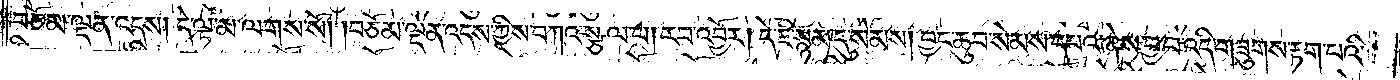བཅོམ་ལྡན་འདས། དེ་ལྟ་མ་ལགས་སོ། །བཅོམ་ལྡན་འདས་ཀྱིས་བཀའ་སྩལ་པ། རབ་འབྱོར། དེ་ཇི་སྙམ་དུ་སེམས། བྱང་ཆུབ་སེམས་དཔའ་ཞེས་བྱ་བ་འདི་གཟུགས་རྟག་པའི་
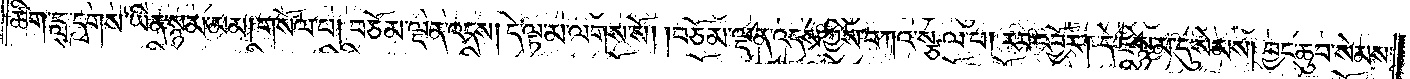ཚིག་བླ་དྭགས་ཡིན་སྙམ་མམ། གསོལ་པ། བཅོམ་ལྡན་འདས། དེ་ལྟ་མ་ལགས་སོ། །བཅོམ་ལྡན་འདས་ཀྱིས་བཀའ་སྩལ་པ། རབ་འབྱོར། དེ་ཇི་སྙམ་དུ་སེམས། བྱང་ཆུབ་སེམས་
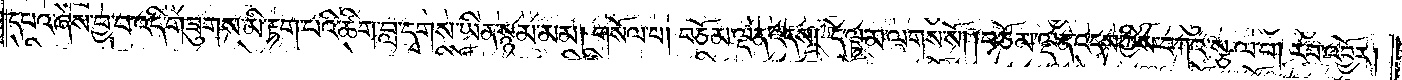དཔའ་ཞེས་བྱ་བ་འདི་གཟུགས་མི་རྟག་པའི་ཚིག་བླ་དྭགས་ཡིན་སྙམ་མམ། གསོལ་པ། བཅོམ་ལྡན་འདས། དེ་ལྟ་མ་ལགས་སོ། །བཅོམ་ལྡན་འདས་ཀྱིས་བཀའ་སྩལ་པ། རབ་འབྱོར།
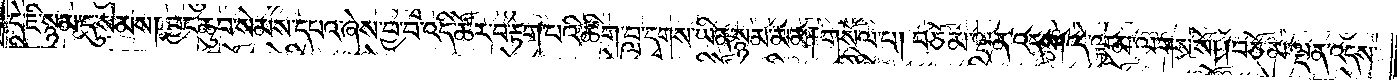དེ་ཇི་སྙམ་དུ་སེམས། བྱང་ཆུབ་སེམས་དཔའ་ཞེས་བྱ་བ་འདི་ཚོར་བརྟག་པའི་ཚིག་བླ་དྭགས་ཡིན་སྙམ་མམ། གསོལ་པ། བཅོམ་ལྡན་འདས། དེ་ལྟ་མ་ལགས་སོ། །བཅོམ་ལྡན་འདས་
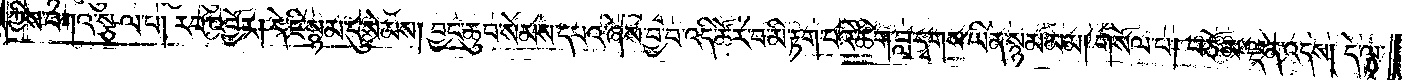ཀྱིས་བཀའ་སྩལ་པ། རབ་འབྱོར། དེ་ཇི་སྙམ་དུ་སེམས། བྱང་ཆུབ་སེམས་དཔའ་ཞེས་བྱ་བ་འདི་ཚོར་བ་མི་རྟག་པའི་ཚིག་བླ་དྭགས་ཡིན་སྙམ་མམ། གསོལ་པ། བཅོམ་ལྡན་འདས། དེ་ལྟ་
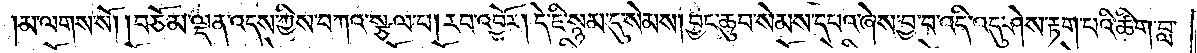མ་ལགས་སོ། །བཅོམ་ལྡན་འདས་ཀྱིས་བཀའ་སྩལ་པ། རབ་འབྱོར། དེ་ཇི་སྙམ་དུ་སེམས། བྱང་ཆུབ་སེམས་དཔའ་ཞེས་བྱ་བ་འདི་འདུ་ཤེས་རྟག་པའི་ཚིག་བླ་
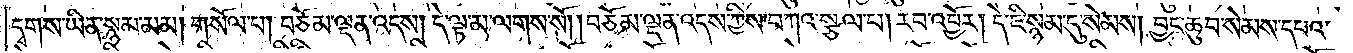དྭགས་ཡིན་སྙམ་མམ། གསོལ་པ། བཅོམ་ལྡན་འདས། དེ་ལྟ་མ་ལགས་སོ། །བཅོམ་ལྡན་འདས་ཀྱིས་བཀའ་སྩལ་པ། རབ་འབྱོར། དེ་ཇི་སྙམ་དུ་སེམས། བྱང་ཆུབ་སེམས་དཔའ་
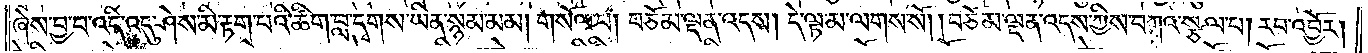ཞེས་བྱ་བ་འདི་འདུ་ཤེས་མི་རྟག་པའི་ཚིག་བླ་དྭགས་ཡིན་སྙམ་མམ། གསོལ་པ། བཅོམ་ལྡན་འདས། དེ་ལྟ་མ་ལགས་སོ། །བཅོམ་ལྡན་འདས་ཀྱིས་བཀའ་སྩལ་པ། རབ་འབྱོར།
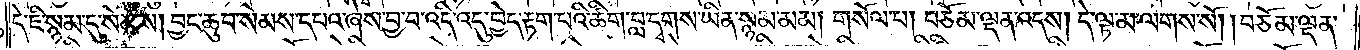དེ་ཇི་སྙམ་དུ་སེམས། བྱང་ཆུབ་སེམས་དཔའ་ཞེས་བྱ་བ་འདི་འདུ་བྱེད་རྟག་པའི་ཚིག་བླ་དྭགས་ཡིན་སྙམ་མམ། གསོལ་པ། བཅོམ་ལྡན་འདས། དེ་ལྟ་མ་ལགས་སོ། །བཅོམ་ལྡན་
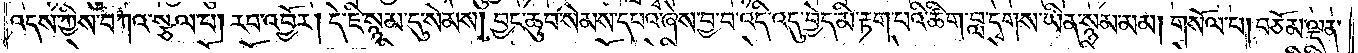འདས་ཀྱིས་བཀའ་སྩལ་པ། རབ་འབྱོར། དེ་ཇི་སྙམ་དུ་སེམས། བྱང་ཆུབ་སེམས་དཔའ་ཞེས་བྱ་བ་འདི་འདུ་བྱེད་མི་རྟག་པའི་ཚིག་བླ་དྭགས་ཡིན་སྙམ་མམ། གསོལ་པ། བཅོམ་ལྡན་
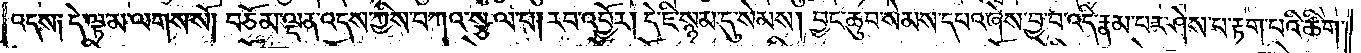འདས༑ དེ་ལྟ་མ་ལགས་སོ། བཅོམ་ལྡན་འདས་ཀྱིས་བཀའ་སྩལ་པ། རབ་འབྱོར། དེ་ཇི་སྙམ་དུ་སེམས། བྱང་ཆུབ་སེམས་དཔའ་ཞེས་བྱ་བ་འདི་རྣམ་པར་ཤེས་པ་རྟག་པའི་ཚིག་
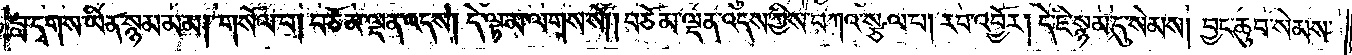བླ་དྭགས་ཡིན་སྙམ་མམ། གསོལ་པ། བཅོམ་ལྡན་འདས། དེ་ལྟ་མ་ལགས་སོ། །བཅོམ་ལྡན་འདས་ཀྱིས་བཀའ་སྩལ་པ། རབ་འབྱོར། དེ་ཇི་སྙམ་དུ་སེམས། བྱང་ཆུབ་སེམས་
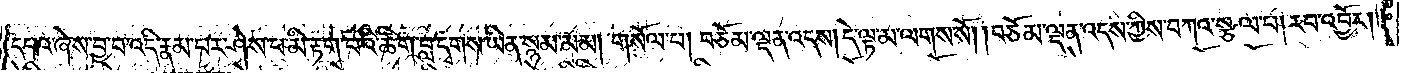དཔའ་ཞེས་བྱ་བ་འདི་རྣམ་པར་ཤེས་པ་མི་རྟག་པའི་ཚིག་བླ་དྭགས་ཡིན་སྙམ་མམ། གསོལ་པ། བཅོམ་ལྡན་འདས། དེ་ལྟ་མ་ལགས་སོ། །བཅོམ་ལྡན་འདས་ཀྱིས་བཀའ་སྩལ་པ། རབ་འབྱོར།
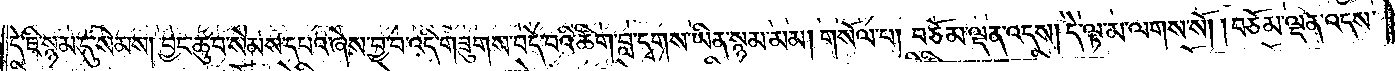དེ་ཇི་སྙམ་དུ་སེམས། བྱང་ཆུབ་སེམས་དཔའ་ཞེས་བྱ་བ་འདི་གཟུགས་བདེ་བའི་ཚིག་བླ་དྭགས་ཡིན་སྙམ་མམ། གསོལ་པ། བཅོམ་ལྡན་འདས། དེ་ལྟ་མ་ལགས་སོ། །བཅོམ་ལྡན་འདས་
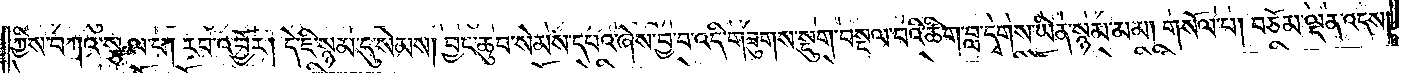ཀྱིས་བཀའ་སྩལ་པ། རབ་འབྱོར། དེ་ཇི་སྙམ་དུ་སེམས། བྱང་ཆུབ་སེམས་དཔའ་ཞེས་བྱ་བ་འདི་གཟུགས་སྡུག་བསྔལ་བའི་ཚིག་བླ་དྭགས་ཡིན་སྙམ་མམ། གསོལ་པ། བཅོམ་ལྡན་འདས།
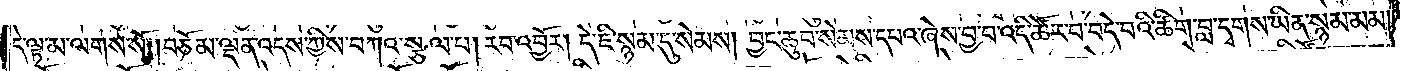དེ་ལྟ་མ་ལགས་སོ། །བཅོམ་ལྡན་འདས་ཀྱིས་བཀའ་སྩལ་པ། རབ་འབྱོར། དེ་ཇི་སྙམ་དུ་སེམས། བྱང་ཆུབ་སེམས་དཔའ་ཞེས་བྱ་བ་འདི་ཚོར་བ་བདེ་བའི་ཚིག་བླ་དྭགས་ཡིན་སྙམ་མམ།
